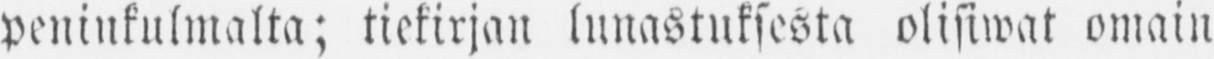peninkulmalta; tiekirjan lunastuksesta olisiwat omain
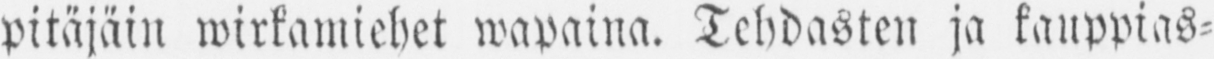pitäjäin wirkamiehet wapaina. Tehdasten ja kauppias-
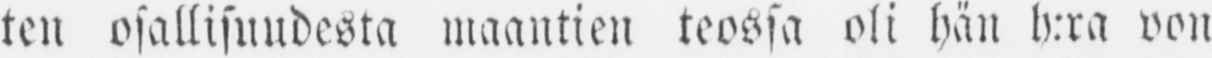ten osallisuudesta maantien teossa oli hän h:ra von
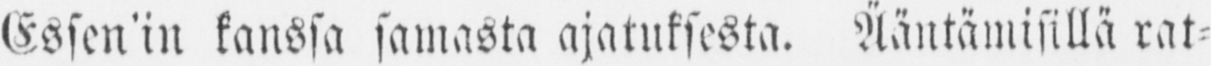Essen'in kanssa samasta ajatuksesta. Ääntämisillä rat-
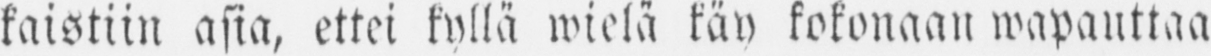kaistiin asia, ettei kyllä wielä käy kokonaan wapauttaa
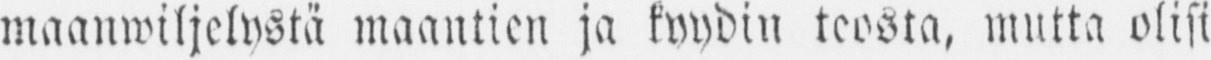maanwiljelystä maantien ja kyydin teosta, mutta olisi
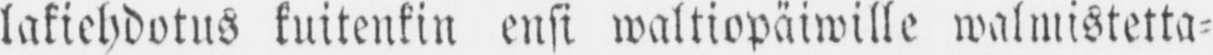lakiehdotus kuitenkin ensi waltiopäiwille walmistetta-
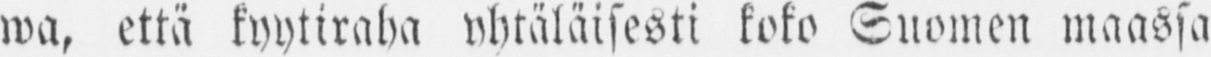wa, että kyytiraha yhtäläisesti koko Suomen maassa
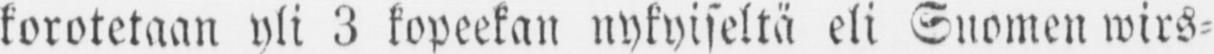korotetaan yli 3 kopeekan nykyiseltä eli Suomen wirs-
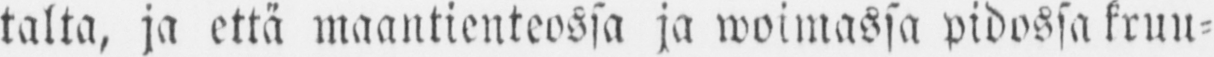talta, ja että maantienteossa ja woimassa pidossa kruu-
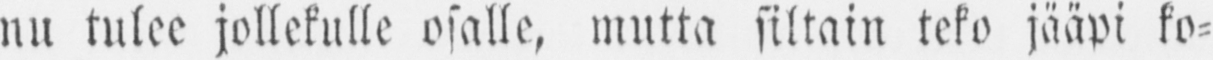nu tulee jollekulle osalle, mutta siltain teko jääpi ko-
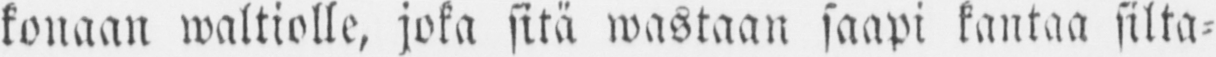konaan waltiolle, joka sitä wastaan saapi kantaa silta-
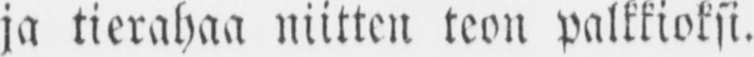ja tierahaa niitten teon palkkioksi.
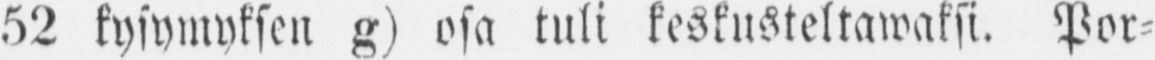52 kysymyksen g) osa tuli keskusteltawaksi. Por-
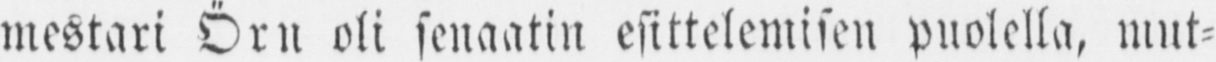mestari Örn oli senaatin esittelemisen puolella, mut-
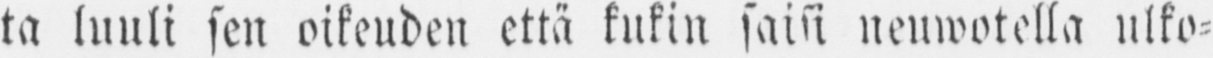ta luuli sen oikeuden että kukin saisi neuwotella ulko-
